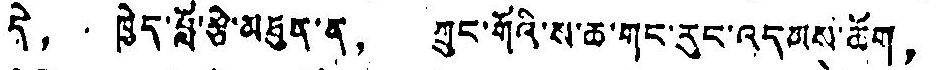དེ， ཁྱེད་བློ་རྩེ་མཐུན་ན， ཀྲུང་གོའི་ས་ཆ་གང་རུང་འདམས་ཆོག，
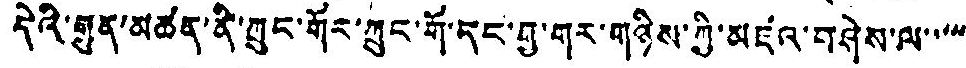དེའི་རྒུན་མཚན་ནི་ཀྲུང་གོར་ཀྲུང་གོ་དང་གྱ་གར་གཉིས་ཀྱི་མཛའ་བཤེས་ལ་་་་་
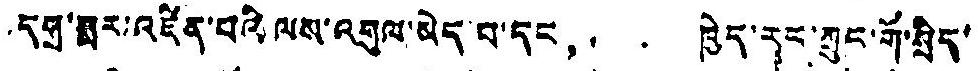དབྲུ་ཟླར་འཛིན་པའི ལས་འགུལ་མེད་པ་དང， ཁྱེད་རང་ཀྲུང་གོ་སྲིད་་་
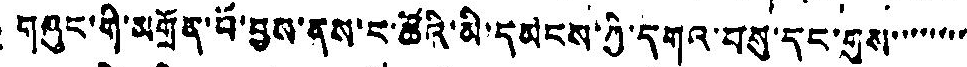གཞུང་གི་མགྲོན་པོ་བྱས་ནས་ང་ཚོའི་མི་དམངས་ཀྱི་དགའ་བསུ་དང་གུས་་་་་་་་
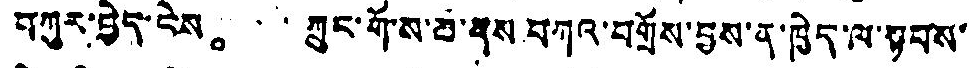བཀུར་བྱེད་ངེས。 ཀྲུང་གོ་ས་ར་ནས བཀའ་བགྲོས་བྱས་ན་ཁྱེད་ལ་སྟབས་
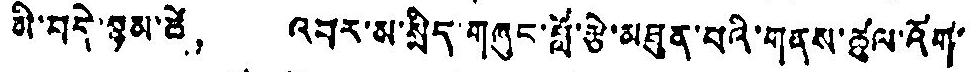མི་བདེ་ཉམ་ཚེ， འབར་མ་སྲིད་གཞུང་བློ་རྩེ་མཐུན་པའི་གནས་ཚུལ་འོག་
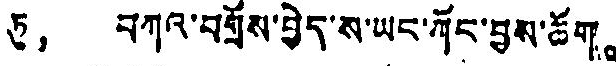ཏུ， བཀའ་བགྲོས་བྱེད་ས་ཡང་ཀོང་བྱས་ཆོག。
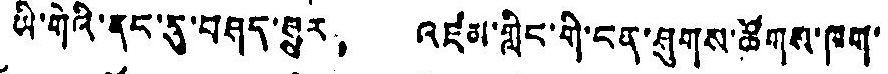ཡི་གེའི་ནང་དུ་བཤད་ཕྱུར， འཛམ་གླིང་གི་ངན་ཤུགས་ཚོགས་ཁག་
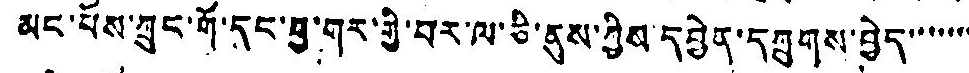མང་པོས་ཀྲུང་གོ་དང་བྱ་གར་གྱི་བར་ལ་ཅི་ནུས་ཀྱིས་དབྱེན་དཀྲུགས་བྱེད་་་་་་་་
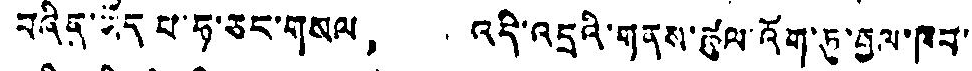བཞིན་ཡོད པ་ཧ་ཅང་གསལ， འདི་འདྲའི་གནས་ཚུལ་འོག་ཏུ་རྒྱལ་ཁབ་
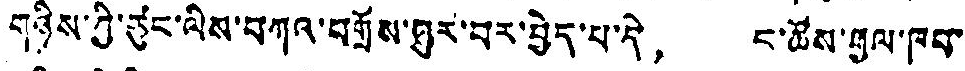གཉིས་ཀྱི་ཙུང་ལིས་བཀའ་བགྲོས་ཐུར་བར་བྱེད་པ་དེ， ང་ཚོས་རྒྱལ་ཁབ་
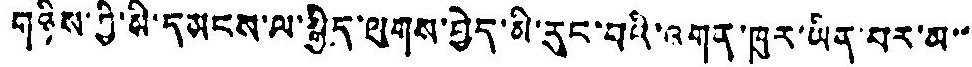གཉིས་ཀྱི་མི་དམངས་ལ་སྐྱིད་ལུགས་བྱེད་མི་རུང་བའི་འགན་ཁུར་ཡིན་པར་མ་་་
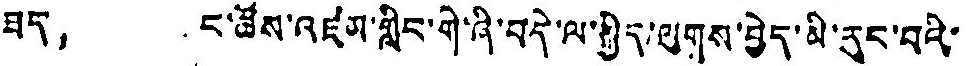ཟད， ང་ཚོས་འཛམ་གླིང་གི་ཞི་བདེ་ལ་སྐྱིད་ལུགས་བྱེད་མི་རུང་བའི་
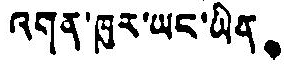འགན་ཁུར་ཡང་ཡིན。
